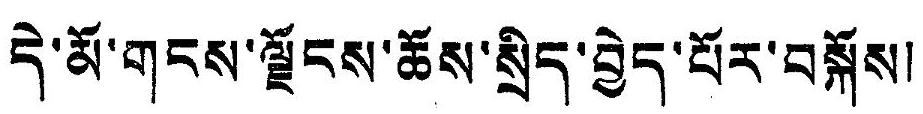དེ་མོ་གངས་ལྗོངས་ཆོས་སྲིད་བྱེད་པོར་བསྐོས།
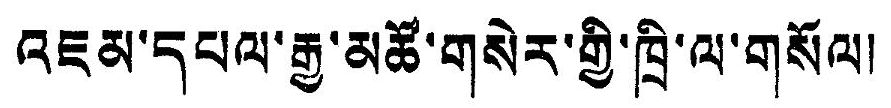འཇམ་དཔལ་རྒྱ་མཚོ་གསེར་གྱི་ཁྲི་ལ་གསོལ།
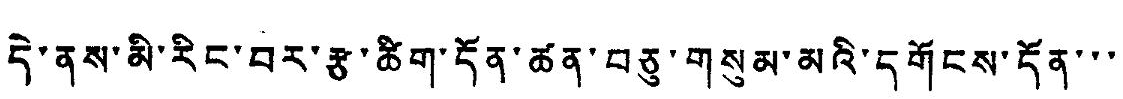དེ་ནས་མི་རིང་བར་རྩ་ཚིག་དོན་ཚན་བཅུ་གསུམ་མའི་དགོངས་དོན་་་
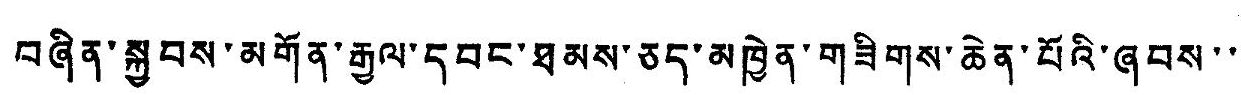བཞིན་སྐྱབས་མགོན་རྒྱལ་དབང་ཐམས་ཅད་མཁྱེན་གཟིགས་ཆེན་པོའི་ཞབས་་
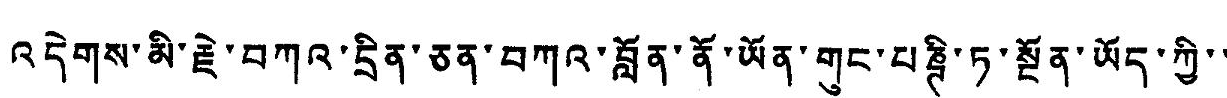འདེགས་མི་རྗེ་བཀའ་དྲིན་ཅན་བཀའ་བློན་ནོ་ཡོན་གུང་པཎྚི་ཏ་སྔོན་ཡོད་ཀྱི་་
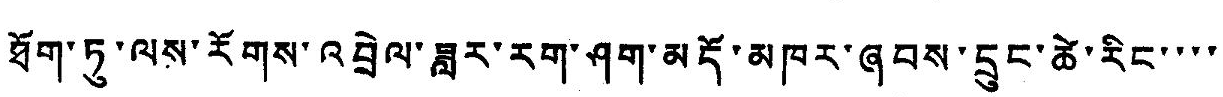ཐོག་ཏུ་ལས་རོགས་འབྲེལ་ཟླར་རག་ཤག་མདོ་མཁར་ཞབས་དྲུང་ཚེ་རིང་་་་
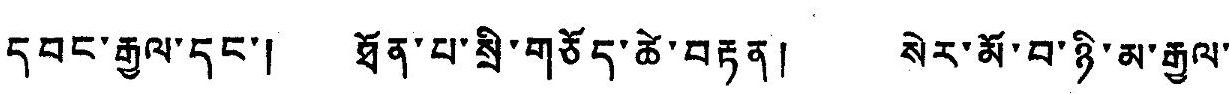དབང་རྒྱལ་དང་། ཐོན་པ་སྲི་གཅོད་ཚེ་བརྟན། སེར་མོ་བ་ཉི་མ་རྒྱལ་
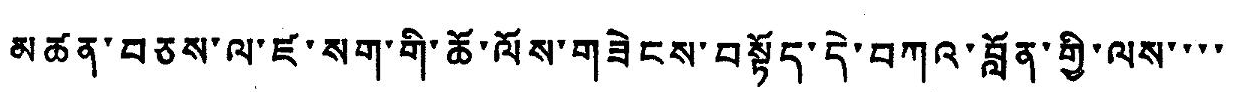མཚན་བཅས་ལ་ཛ་སག་གི་ཆོ་ལོས་གཟེངས་བསྟོད་དེ་བཀའ་བློན་གྱི་ལས་་་་
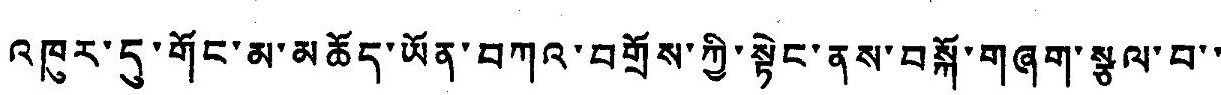འཁུར་དུ་གོང་མ་མཆོད་ཡོན་བཀའ་བགྲོས་ཀྱི་སྟེང་ནས་བསྐོ་བཞག་སྩལ་བ་
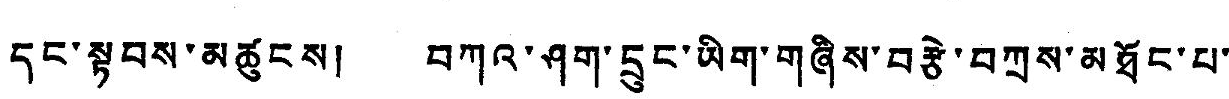དང་སྟབས་མཚུངས། བཀའ་ཤག་དྲུང་ཡིག་གཞིས་བརྩེ་བཀྲས་མཐོང་པ་
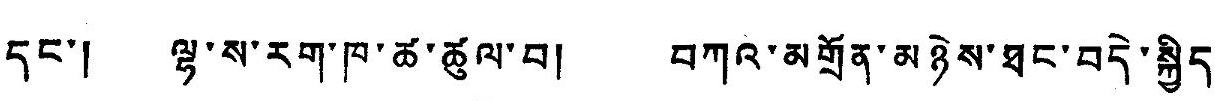དང་། ལྷ་ས་རག་ཁ་ཚ་ཚུལ་བ། བཀའ་མགྲོན་མཉེས་ཐང་བདེ་སྐྱིད་
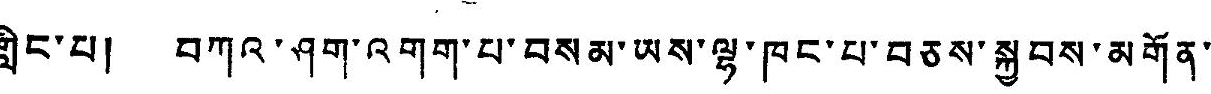གླིང་པ། བཀའ་ཤག་འགག་པ་བསམ་ཡས་ལྷ་ཁང་པ་བཅས་སྐྱབས་མགོན་
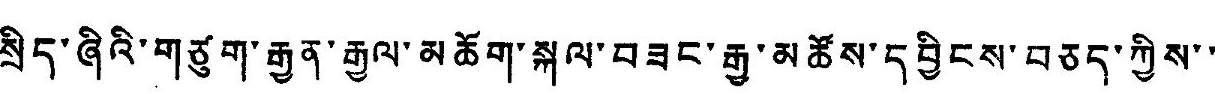སྲིད་ཞིའི་གཙུག་རྒྱན་རྒྱལ་མཆོག་སྐལ་བཟང་རྒྱ་མཚོས་དབྱིངས་བཅད་ཀྱིས་་
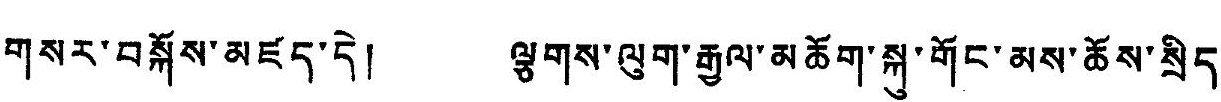གསར་བསྐོས་མཛད་དེ། ལྕགས་ལུག་རྒྱལ་མཆོག་སྐུ་གོང་མས་ཆོས་སྲིད་
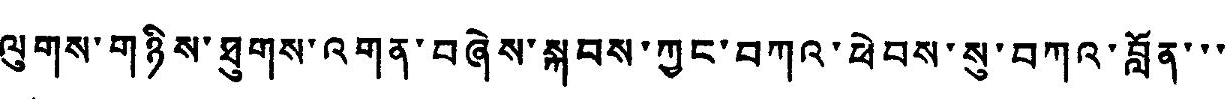ལུགས་གཉིས་ཐུགས་འགན་བཞེས་སྐབས་ཀྱང་བཀའ་ཕེབས་སུ་བཀའ་བློན་་་
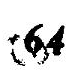64
